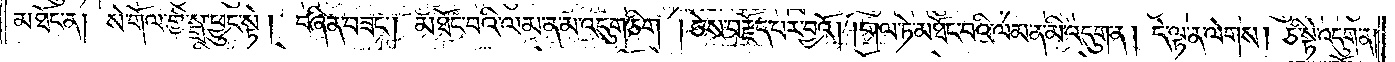མཐོང་ན། སེ་གོལ་གྱི་སྒྲ་ཕྱུང་སྟེ། བཞིན་བཟང༌། མཐོང་བའི་ལམ་ན་མ་འདུག་ཅིག །ཅེས་བརྗོད་པར་བྱའོ། །གལ་ཏེ་མཐོང་བའི་ལམ་ན་མི་འདུག་ན། དེ་ལྟ་ན་ལེགས། ཅི་སྟེ་འདུག་ན།
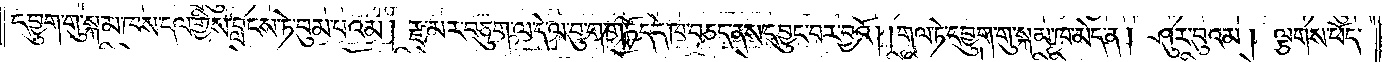དབྱུག་གུ་སྐམ་ཁས་དལ་གྱིས་བླངས་ཏེ་བུམ་པའམ། རྫ་མར་བཅུག་ལ་དེ་ལ་བུ་ག་གཏོད་དེ་ཁ་བཅད་ནས་དབྱུང་བར་བྱའོ། །གལ་ཏེ་དབྱུག་གུ་སྐམ་ཁ་མེད་ན། ཤུར་བུའམ། ལྕགས་ཕོད་
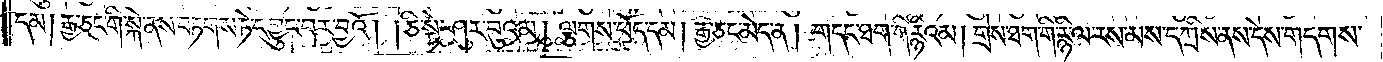དམ། རྒྱ་ཅང་གི་སྐེ་ནས་བཏགས་ཏེ་དབྱུང་བར་བྱའོ། །ཅི་སྟེ་ཤུར་བུའམ། ལྕགས་ཕོད་དམ། རྒྱ་ཅང་མེད་ན། གདང་ཐག་གི་རྙིའམ། གྲེས་ཐག་གི་རྙི་ལ་རས་མས་དཀྲིས་ནས་དེས་གདགས་
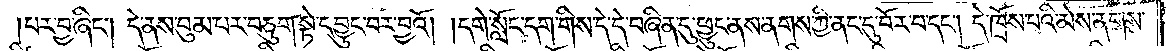པར་བྱ་ཞིང༌། དེ་ནས་བུམ་པར་བཅུག་སྟེ་དབྱུང་བར་བྱའོ། །དགེ་སློང་དག་གིས་དེ་དེ་བཞིན་དུ་ཕྱུང་ནས་ནགས་ཀྱི་ནང་དུ་བོར་བ་དང༌། དེ་ཁྲོས་པའི་མེས་ནགས་
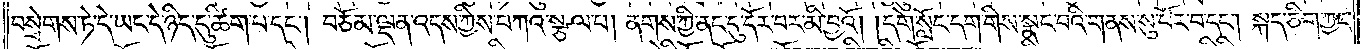བསྲེགས་ཏེ་དེ་ཡང་དེ་ཉིད་དུ་ཚིག་པ་དང༌། བཅོམ་ལྡན་འདས་ཀྱིས་བཀའ་སྩལ་པ། ནགས་ཀྱི་ནང་དུ་དོར་བར་མི་བྱའོ། །དགེ་སློང་དག་གིས་སྣང་བའི་གནས་སུ་བོར་བ་དང༌། སྐད་ཅིག་ཀྱང་
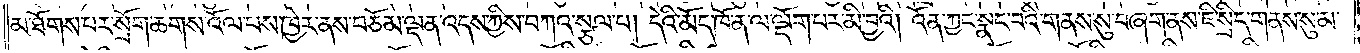མ་ཐོགས་པར་སྲོག་ཆགས་འོལ་པས་ཁྱེར་ནས་བཅོམ་ལྡན་འདས་ཀྱིས་བཀའ་སྩལ་པ། དེའི་མོད་ཁོ་ན་ལ་ལྡོག་པར་མི་བྱའི། འོན་ཀྱང་སྣང་བའི་གནས་སུ་བཞག་ནས་ཇི་སྲིད་གནས་སུམ་
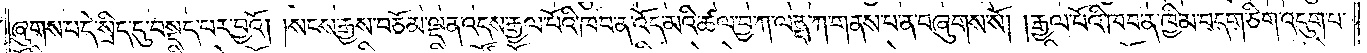ཞུགས་པ་དེ་སྲིད་དུ་བསྡད་པར་བྱའོ། །སངས་རྒྱས་བཅོམ་ལྡན་འདས་རྒྱལ་པོའི་ཁབ་ན་འོད་མའི་ཚལ་བྱ་ཀ་ལནྡ་ཀ་གནས་པ་ན་བཞུགས་སོ། །རྒྱལ་པོའི་ཁབ་ན་ཁྱིམ་བདག་ཅིག་འདུག་པ་
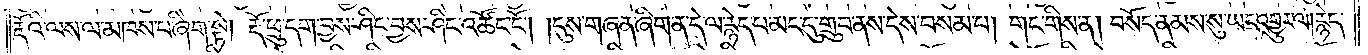རྡོའི་ལས་ལ་མཁས་པ་ཞིག་སྟེ། རྡོ་ཕྲུ་དག་བྱས་ཤིང་བྱས་ཤིང་འཚོང་ངོ༌། །དུས་གཞན་ཞིག་ན་དེ་ལ་རྙེད་པ་མང་དུ་གྲུབ་ནས་དེས་བསམ་པ། གང་གིས་ན། བསོད་ནམས་སུ་ཡང་འགྱུར་ལ། རྙེད་
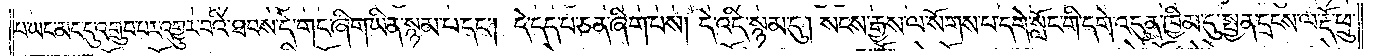པ་ཡང་མང་དུ་འགྲུབ་པར་འགྱུར་བའི་ཐབས་དེ་གང་ཞིག་ཡིན་སྙམ་པ་དང༌། དེ་དད་པ་ཅན་ཞིག་པས། དེ་འདི་སྙམ་དུ། སངས་རྒྱས་ལ་སོགས་པ་དགེ་སློང་གི་དགེ་འདུན་ཁྱིམ་དུ་སྤྱན་དྲངས་ལ་རྡོ་ཕྲུ་
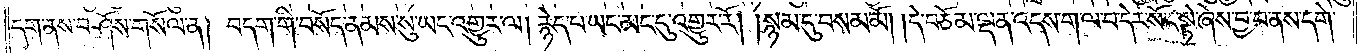དག་ནས་བཤོས་གསོལ་ན། བདག་གི་བསོད་ནམས་སུ་ཡང་འགྱུར་ལ། རྙེད་པ་ཡང་མང་དུ་འགྱུར་རོ། །སྙམ་དུ་བསམ་མོ། །དེ་བཅོམ་ལྡན་འདས་ག་ལ་བ་དེར་སོང་སྟེ་ཞེས་བྱ་བ་ནས་དགེ་
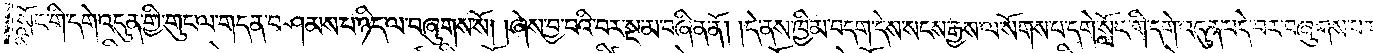སློང་གི་དགེ་འདུན་གྱི་གུང་ལ་གདན་བཤམས་པ་ཉིད་ལ་བཞུགས་སོ། །ཞེས་བྱ་བའི་བར་སྔ་མ་བཞིན་ནོ། །དེ་ནས་ཁྱིམ་བདག་དེས་སངས་རྒྱས་ལ་སོགས་པ་དགེ་སློང་གི་དགེ་འདུན་བདེ་བར་བཞུགས་པར་
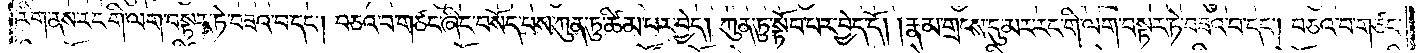རིག་ནས་རང་གི་ལག་བསྟར་ཏེ་བཟའ་བ་དང༌། བཅའ་བ་གཙང་ཞིང་བསོད་པས་ཀུན་ཏུ་ཚིམ་པར་བྱེད། ཀུན་ཏུ་སྟོབ་པར་བྱེད་དོ། །རྣམ་གྲངས་དུ་མར་རང་གི་ལག་བསྟར་ཏེ་བཟའ་བ་དང༌། བཅའ་བ་གཙང་
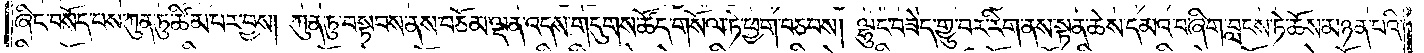ཞིང་བསོད་པས་ཀུན་ཏུ་ཚིམ་པར་བྱས། ཀུན་ཏུ་བསྟབས་ནས་བཅོམ་ལྡན་འདས་གདུགས་ཚོད་གསོལ་ཏེ་ཕྱག་བཅབས། ལྷུང་བཟེད་གྱུ་བར་རིག་ནས་སྟན་ཆེས་དམའ་བ་ཞིག་བླངས་ཏེ་ཆོས་མཉན་པའི་
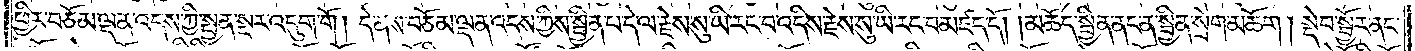ཕྱིར་བཅོམ་ལྡན་འདས་ཀྱི་སྤྱན་སྔར་འདུག་གོ། དེ་ནས་བཅོམ་ལྡན་འདས་ཀྱིས་སྦྱིན་པ་དེ་ལ་རྗེས་སུ་ཡི་རང་བ་འདིས་རྗེས་སུ་ཡི་རང་བ་མཛད་དོ། །མཆོད་སྦྱིན་ནང་ན་སྦྱིན་སྲེག་མཆོག། སྡེབ་སྦྱོར་ནང་
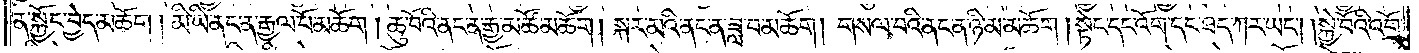ན་སྐྱོང་བྱེད་མཆོག། མི་ཡི་ནང་ན་རྒྱལ་པོ་མཆོག །ཆུ་བོའི་ནང་ན་རྒྱ་མཚོ་མཆོག། སྐར་མའི་ནང་ན་ཟླ་བ་མཆོག། གསལ་བའི་ནང་ན་ཉི་མ་མཆོག། སྟེང་དང་འོག་དང་ཐད་ཀར་ཡང༌། །སྐྱེ་བོའི་འགྲོ་
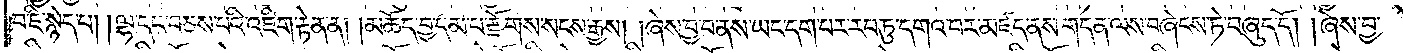བ་ཇི་སྙེད་པ། །ལྷ་དང་བཅས་པའི་འཇིག་རྟེན་ན། །མཆོད་བྱ་དམ་པ་རྫོགས་སངས་རྒྱས། །ཞེས་བྱ་བ་ནས་ཡང་དག་པར་རབ་ཏུ་དགའ་བར་མཛད་ནས་གདན་ལས་བཞེངས་ཏེ་བཞུད་དོ། །ཞེས་བྱ་
